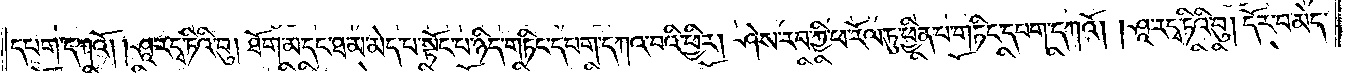དཔག་དཀའོ། །ཤཱ་རདྭ་ཏིའི་བུ། ཐོག་མ་དང་ཐ་མ་མེད་པ་སྟོང་པ་ཉིད་གཏིང་དཔག་དཀའ་བའི་ཕྱིར། ཤེས་རབ་ཀྱི་ཕ་རོལ་ཏུ་ཕྱིན་པ་གཏིང་དཔག་དཀའོ། །ཤཱ་ར་དྭ་ཏིའི་བུ། དོར་བ་མེད་
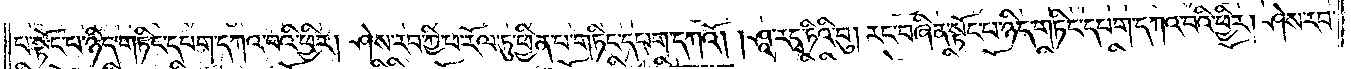པ་སྟོང་པ་ཉིད་གཏིང་དཔག་དཀའ་བའི་ཕྱིར། ཤེས་རབ་ཀྱི་ཕ་རོལ་ཏུ་ཕྱིན་པ་གཏིང་དཔག་བཀའོ། །ཤཱ་རདྭ་ཏིའི་བུ། རང་བཞིན་སྟོང་པ་ཉིད་གཏིང་དཔག་དཀའ་བའི་ཕྱིར། ཤེས་རབ་
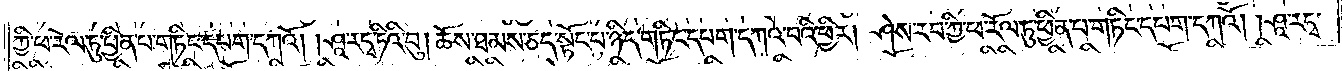ཀྱི་ཕ་རོལ་ཏུ་ཕྱིན་པ་གཏིང་དཔག་དཀའོ། །ཤཱ་ར་དྭ་ཏིའི་བུ། ཆོས་ཐམས་ཅད་སྟོང་པ་ཉིད་གཏིང་དཔག་དཀའ་བའི་ཕྱིར། ཤེས་རབ་ཀྱི་ཕ་རོལ་ཏུ་ཕྱིན་པ་གཏིང་དཔག་དཀའོ། །ཤཱ་རདྭ་
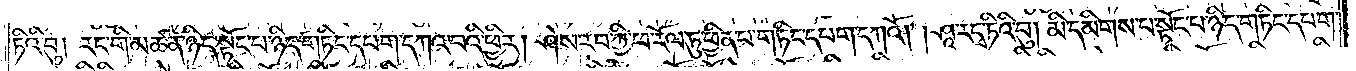ཏིའི་བུ། རང་གི་མཚན་ཉིད་སྟོང་པ་ཉིད་གཏིང་དཔག་དཀའ་བའི་ཕྱིར། ཤེས་རབ་ཀྱི་ཕ་རོལ་ཏུ་ཕྱིན་པ་གཏིང་དཔག་དཀའོ། །ཤཱ་རདྭ་ཏིའི་བུ། མི་དམིགས་པ་སྟོང་པ་ཉིད་གཏིང་དཔག་
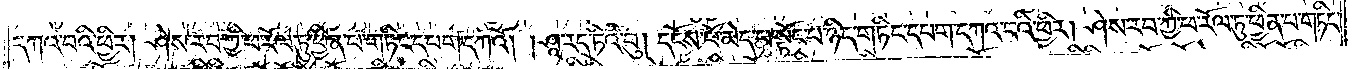དཀའ་བའི་ཕྱིར། ཤེས་རབ་ཀྱི་ཕ་རོལ་ཏུ་ཕྱིན་པ་གཏིང་དཔག་དཀའོ། །ཤཱ་ར་དྭ་ཏིའི་བུ། དངོས་པོ་མེད་པ་སྟོང་པ་ཉིད་གཏིང་དཔག་དཀའ་བའི་ཕྱིར། ཤེས་རབ་ཀྱི་ཕ་རོལ་ཏུ་ཕྱིན་པ་གཏིང་
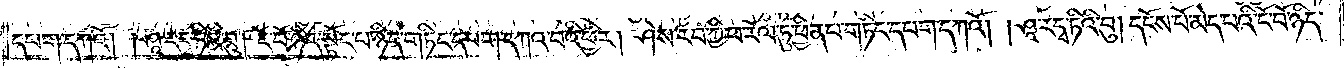དཔག་དཀའོ། །ཤཱ་རདྭ་ཏིའི་བུ། ངོ་བོ་ཉིད་སྟོང་པ་ཉིད་གཏིང་དཔག་དཀའ་བའི་ཕྱིར། ཤེས་རབ་ཀྱི་ཕ་རོལ་ཏུ་ཕྱིན་པ་གཏིང་དཔག་དཀའོ། །ཤཱ་རདྭ་ཏིའི་བུ། དངོས་པོ་མེད་པའི་ངོ་བོ་ཉིད་
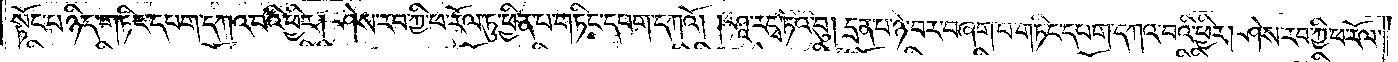སྟོང་པ་ཉིད་གཏིང་དཔག་དཀའ་བའི་ཕྱིར། ཤེས་རབ་ཀྱི་ཕ་རོལ་ཏུ་ཕྱིན་པ་གཏིང་དཔག་དཀའོ། །ཤཱ་རདྭ་ཏིའི་བུ། དྲན་པ་ཉེ་བར་བཞག་པ་གཏིང་དཔག་དཀའ་བའི་ཕྱིར། ཤེས་རབ་ཀྱི་ཕ་རོལ་
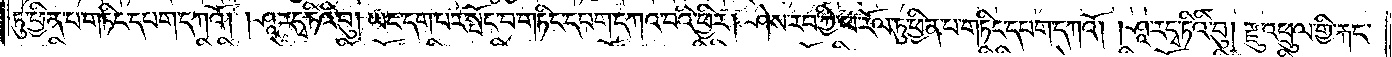ཏུ་ཕྱིན་པ་གཏིང་དཔག་དཀའོ། །ཤཱ་རདྭ་ཏིའི་བུ། ཡང་དག་པར་སྤོང་བ་གཏིང་དཔག་དཀའ་བའི་ཕྱིར། ཤེས་རབ་ཀྱི་ཕ་རོལ་ཏུ་ཕྱིན་པ་གཏིང་དཔག་དཀའོ། །ཤཱ་རདྭ་ཏིའི་བུ། རྫུ་འཕྲུལ་གྱི་རྐང་
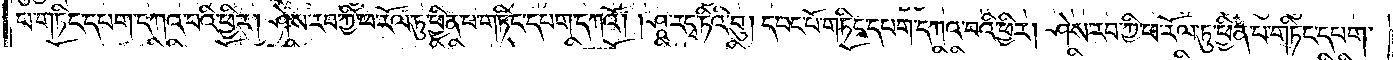པ་གཏིང་དཔག་དཀའ་བའི་ཕྱིར། ཤེས་རབ་ཀྱི་ཕ་རོལ་ཏུ་ཕྱིན་པ་གཏིང་དཔག་དཀའོ། །ཤཱ་རདྭ་ཏིའི་བུ། དབང་པོ་གཏིང་དཔག་དཀའ་བའི་ཕྱིར། ཤེས་རབ་ཀྱི་ཕ་རོལ་ཏུ་ཕྱིན་པ་གཏིང་དཔག་
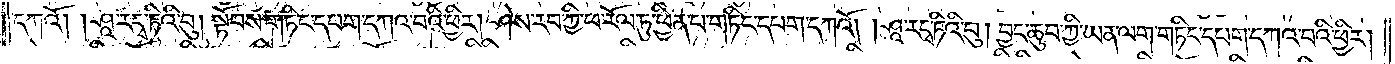དཀའོ། །ཤཱ་རདྭ་ཏིའི་བུ། སྟོབས་གཏིང་དཔག་དཀའ་བའི་ཕྱིར། ཤེས་རབ་ཀྱི་ཕ་རོལ་ཏུ་ཕྱིན་པ་གཏིང་དཔག་དཀའོ། །ཤཱ་རདྭ་ཏིའི་བུ། བྱང་ཆུབ་ཀྱི་ཡན་ལག་གཏིང་དཔག་དཀའ་བའི་ཕྱིར།
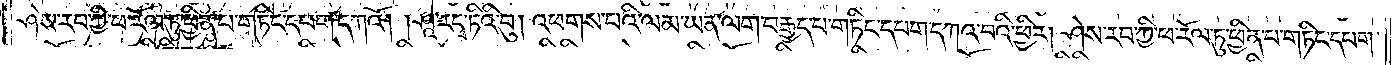ཤེས་རབ་ཀྱི་ཕ་རོལ་ཏུ་ཕྱིན་པ་གཏིང་དཔག་དཀའོ། །ཤཱ་རདྭ་ཏིའི་བུ། འཕགས་པའི་ལམ་ཡན་ལག་བརྒྱད་པ་གཏིང་དཔག་དཀའ་བའི་ཕྱིར། ཤེས་རབ་ཀྱི་ཕ་རོལ་ཏུ་ཕྱིན་པ་གཏིང་དཔག་
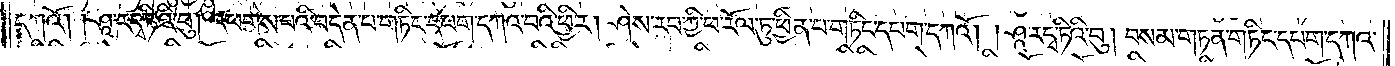དཀའོ། །ཤཱ་རདྭ་ཏིའི་བུ། འཕགས་པའི་བདེན་པ་གཏིང་དཔག་དཀའ་བའི་ཕྱིར། ཤེས་རབ་ཀྱི་ཕ་རོལ་ཏུ་ཕྱིན་པ་གཏིང་དཔག་དཀའོ། །ཤཱ་རདྭ་ཏིའི་བུ། བསམ་གཏན་གཏིང་དཔག་དཀའ་
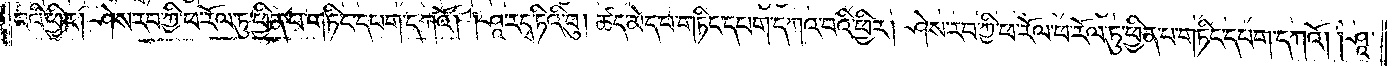བའི་ཕྱིར། ཤེས་རབ་ཀྱི་ཕ་རོལ་ཏུ་ཕྱིན་པ་གཏིང་དཔག་དཀའོ། །ཤཱ་རདྭ་ཏིའི་བུ། ཚད་མེད་པ་གཏིང་དཔག་དཀའ་བའི་ཕྱིར། ཤེས་རབ་ཀྱི་ཕ་རོལ་ཏུ་ཕྱིན་པ་གཏིང་དཔག་དཀའོ། །ཤཱ་
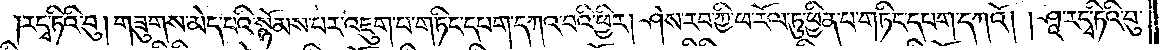རདྭ་ཏིའི་བུ། གཟུགས་མེད་པའི་སྙོམས་པར་འཇུག་པ་གཏིང་དཔག་དཀའི་བའི་ཕྱིར། ཤེས་རབ་ཀྱི་ཕ་རོལ་ཏུ་ཕྱིན་པ་གཏིང་དཔག་དཀའོ། །ཤཱ་རདྭ་ཏིའི་བུ།
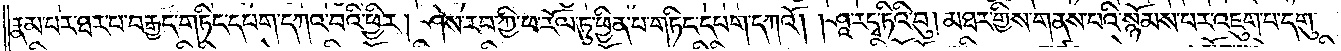རྣམ་པར་ཐར་པ་བརྒྱད་གཏིང་དཔག་དཀའ་བའི་ཕྱིར། ཤེས་རབ་ཀྱི་ཕ་རོལ་ཏུ་ཕྱིན་པ་གཏིང་དཔག་དཀའོ། །ཤཱ་རདྭ་ཏིའི་བུ། མཐར་གྱིས་གནས་པའི་སྙོམས་པར་འཇུག་པ་དགུ་
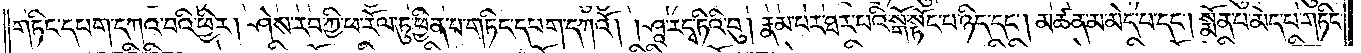གཏིང་དཔག་དཀའ་བའི་ཕྱིར། ཤེས་རབ་ཀྱི་ཕ་རོལ་ཏུ་ཕྱིན་པ་གཏིང་དཔག་དཀའོ། །ཤཱ་རདྭ་ཏིའི་བུ། རྣམ་པ་ཐར་པའི་སྒོ་སྟོང་པ་ཉིད་དང༌། མཚན་མ་མེད་པ་དང༌། སྨོན་པ་མེད་པ་གཏིང་
